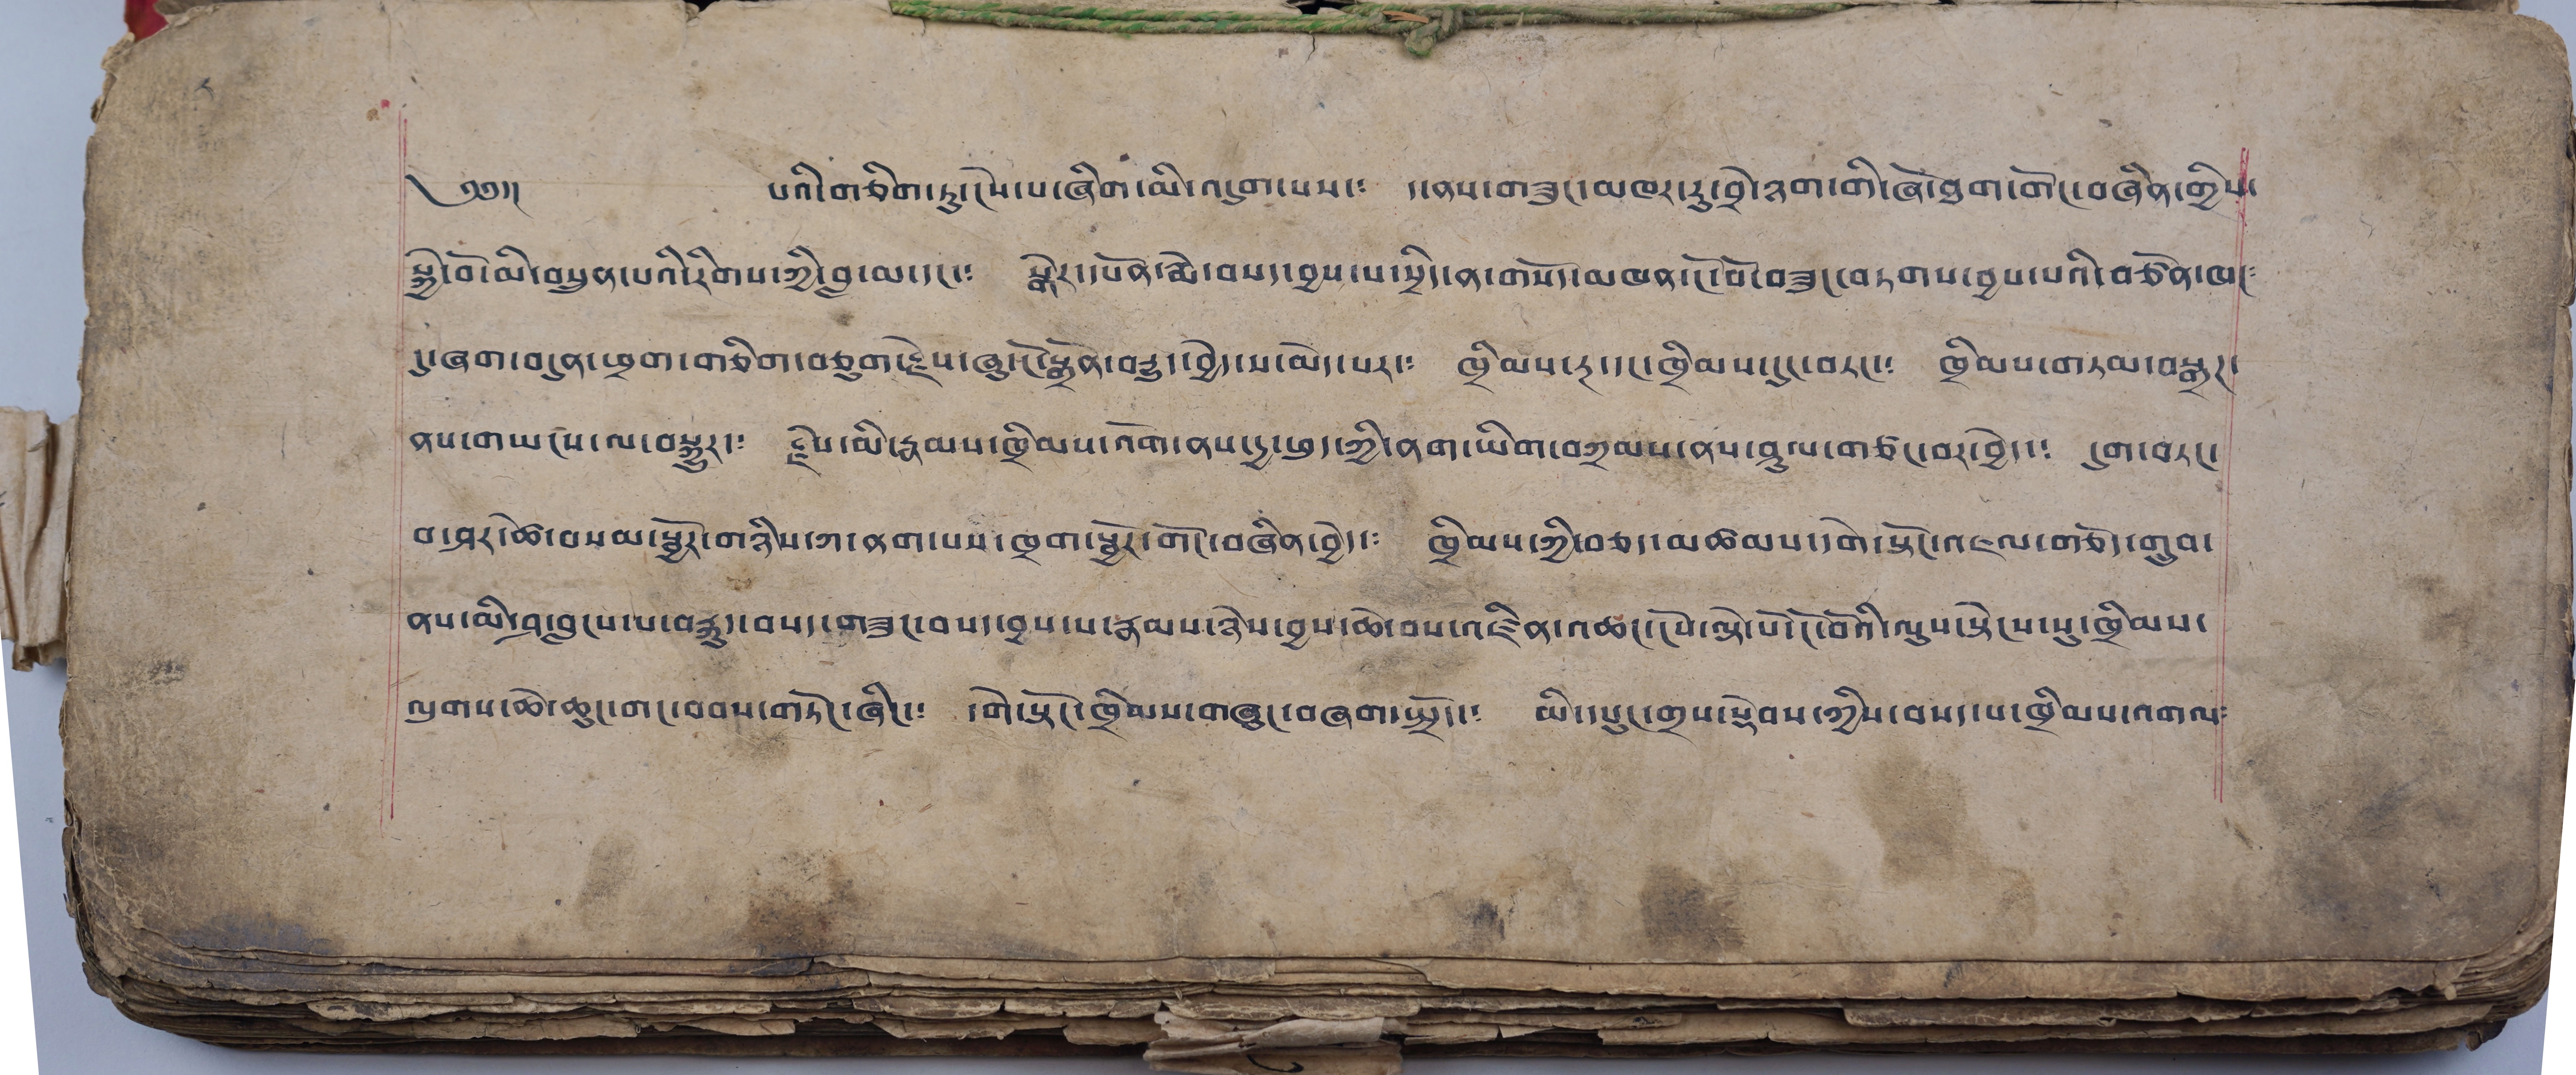༨
༄༅།། པའི་གཅིག་ཏུ་ངེས་པ་ཞིག་མི་འདུག་པས་༴ ད་ནས་གཟུང་མཁར་རུ་བྲེ་ཉག་གི་ཞོ་ཐག་གོང་བཞིན་གྱིས་
སྐྱེ་བ་མི་བསྲུན་པའི་རིགས་ཀྱི་བླ་མ་དང་༴ སྒེར་དཔོན་རྨེ་བསད་བྱས་པ་སྲིད་ན་གསོད་མཁན་ངོ་བོ་བཟུང་བཏགས་བྱས་པའི་བཙོན་ཁང༴
དུ་ཞག་བདུན་ཕྲག་གཅིག་བཅུག་རྗེས་ཞུ་ངོ་སྒྲོན་བརྒྱུ་བྱེད་པ་མེད་པར་༴ ཁྲིམས་རྔ་དང་ཁྲིམས་དུང་བཏང་༴ ཁྲིམས་གཏམ་བསྒྲཊ་
ནས་གཡངས་ལ་བསྐུར་༴ རྗེས་མི་རྣམས་ཁྲིམས་འོག་ནས་དྱ་ཕྲད་ཀྱི་ནག་ཡིག་བཀྲམས་ནས་ཤུལ་གཙང་བར་བྱེད་༴ དུག་བཏང་
བ་ཤར་ཚེ་བསམ་སྦྱོར་གཉིས་ཀ་ནག་པས་ཁྲག་སྦྱོར་གོང་བཞིན་བྱེད་༴ ཁྲིམས་ཀྱི་བཅད་མཚམས་དགེ་སྟོང་འཇལ་གཅོད་གྲུབ་
ནས་མི་ཤ་བླངས་པ་བརྐུད་བསད་གཟུང་བསད་བྱས་པ་རྣམས་ཉེས་བྱས་ཆེ་བས་འཛིན་འཚང་ངོས་ལྟེ་པོ་ངོ་བའི་ལུས་སྟེངས་སུ་ཁྲིམས་
ལུགས་ཆེ་ཆུང་གང་བབས་གཏོང་ཞིང་༴ དགེ་སྟོང་ཁྲིམས་གཞུང་བཞག་སྤྲོད་༴ མི་དཔུང་གྲས་སྡེབས་ཀྱིས་བསད་པ་ཁྲིམས་འགལ༴
